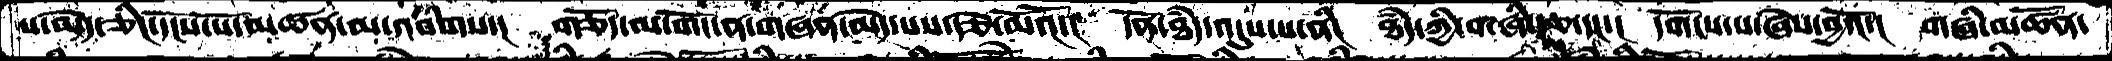པ་མེད་ཅིང་དངོས་པོ་མཚན་མ་འབིགས་།  གཅོད་ལ་གོང་ན་གཞན་མེད་པས་རྩེ་མོའོ་།  དོན་ཐཾད་འདུས་པ་ནི་།  ཐཾད་ཀྱི་གཞི་རྩ་དང་།  དགོངས་པ་ཞེས་བྱའོ་།  གཞི་མཚོན་
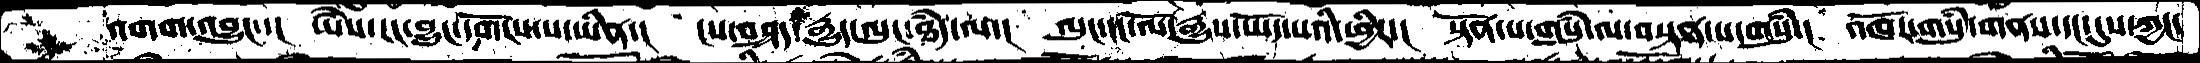འགག་འབྱུང་་།  ཡཻས་རང་བྱུང་དགོངས་པ་ཡིན་།  ངས་བཤད་རྒྱུད་ལུང་ཐདཾ་ལ་།  ལུང་དང་ལོ་རྒྱུས་ཡོད་པའི་ཕྱིར་།  སྟོན་པ་གསུཾ་ལ་བསྟན་པ་གསུཾ་།  འཁོར་གསུཾ་གནས་དང་དུས་ཀྱང་
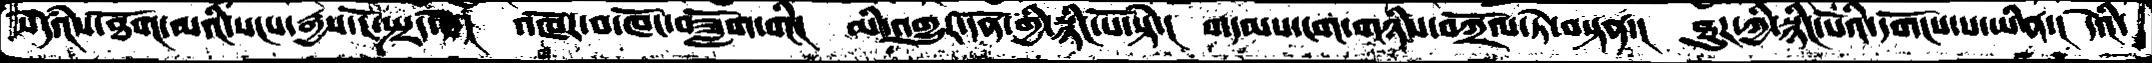སེདཾའས་ཐོག་མའི་སངས་རྒྱས་ངོ་སྤྲད་དེ་།  འཁོར་བ་ཁོང་བཟློག་གི།  མི་འགྱུར་དོན་གྱི་སྙིང་པོོ་སྟེ་།  གདམས་ངག་གཉིས་བཀྲོལ་ཏེ་བསྟན་།  ཐུཌ་ཀྱི་སྙིང་པོའི་དགོངས་པ་ཡིན་།  དེའི་
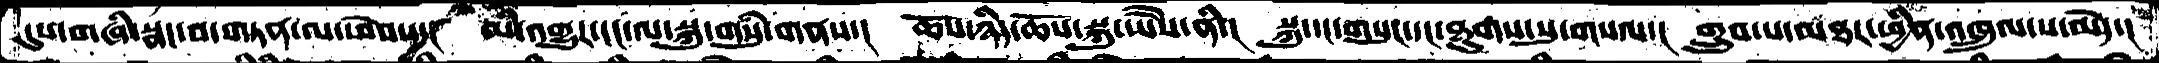དུས་གཞི་སྣང་བ་གཏན་ལ་ཕེབས་།  མི་འགྱུར་ངང་ལ་སྐུ་གསུཾ་གནས་།  ཆོས་ཉིད་ཆོས་སྐུ་ཡཻས་ནི་།  སྐུ་དང་གསུང་དང་ཐུགས་སུ་གསལ་།  གྲུབ་པ་མཐར་ཕྱིན་འཁྲུལ་པ་མེད་།
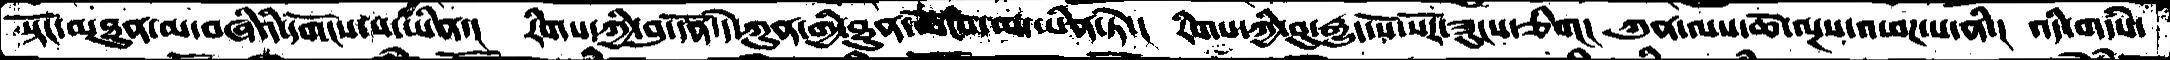སྟོང་མཐུན་མ་བཞིའི་དགོངས་པ་ཡིན་།  རིགས་ཀྱི་བུ་དོན་དེ་ཀུན་གྱི་ཐུན་མོངས་མ་ཡིན་ཏེ་།  རིགས་ཀྱི་བུ་རྒྱུད་སོ་སོར་ཟུངས་ཅིག། ཀུན་ལས་ཆོ་ལྔས་འཕཌ་པ་ནི་།  འདི་གདཾས་
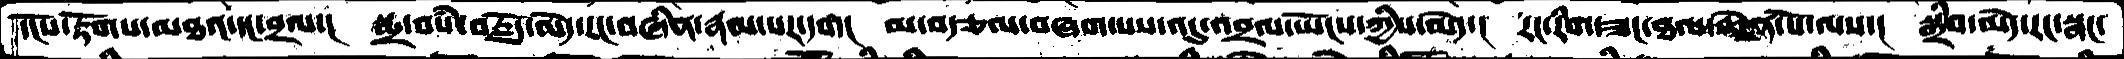དངོས་རྟོགས་མཐའ་དང་བྲལ་།  སྨྲ་བསཾ་བརྗོད་མེད་རང་བཞིན་རྣམ་པར་དག།  མ་བརྩལ་བཞག་པས་འདུ་བྲལ་ཡོངས་ཀྱིས་མེད་།  རང་རིག་ཟང་ཐལ་ཆེན་པོ་ལས་།  སྒྲིབ་མེད་རང་སྣང་
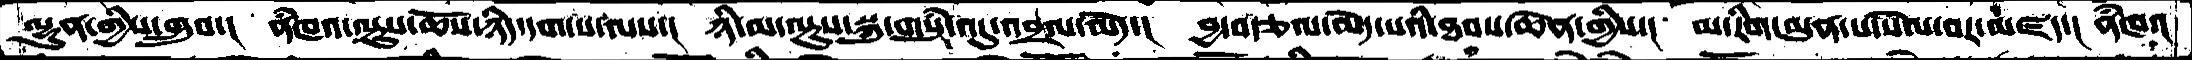ལྷུན་གྱིས་གྲུབ་།  ནཾཁའ་ལྟུས་ཆོས་ཉིད་དག་པ་ལས་།  ཉི་མ་ལྟུས་སྐུ་གསུཾ་འདུ་འབྲལ་མེད།  བྱ་བརྩལ་མེད་པའི་ཐབས་ཆེན་གྱིས་།  མ་རིག་མུན་པ་སེལ་བར་མཛད་།  ནཾཁའ་
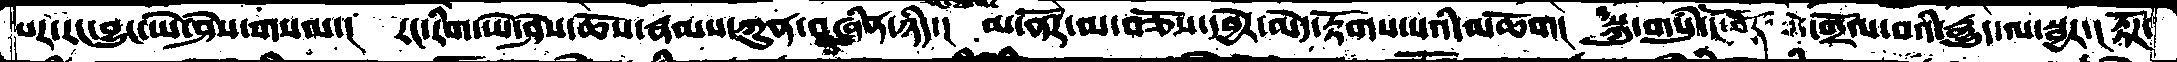པར་རང་བྱུང་ཡེ་ཤེས་གསལ་།  རང་རིག་ཡེ་ཤེས་ཆོས་རྣམས་ཀུན་བཞིན་ཉིད་།  མ་ནོར་མ་བཅོས་དབྱེར་མེད་རྟོགས་པའི་མཆོག།  སྐུ་གསུཾ་ངོ་བོར་གྲོལ་བའི་རྒྱུད་ལ་སྦྱར་།  རྟོཌ་
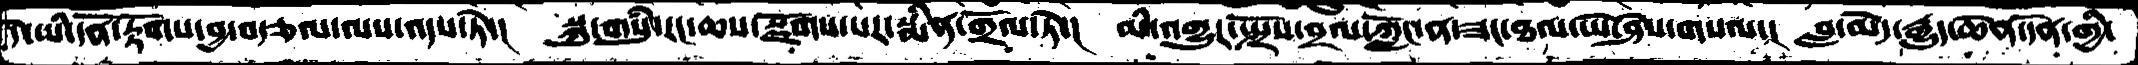དེ་ཡི་དོན་རྟོགས་བྱ་བརྩལ་ལས་འདས་ཏེ་།  སྐུ་གསུཾ་རང་ཆས་སྫོགས་པར་སྨིན་གྲོལ་ཏེ་།  མི་འགྱུར་སྤྲོས་བྲལ་ཀློང་ན་ཟང་ཐལ་ཡེ་ཤེས་གསལ་།  བླ་མེད་རྒྱུད་ཆེན་དོན་གྱི་
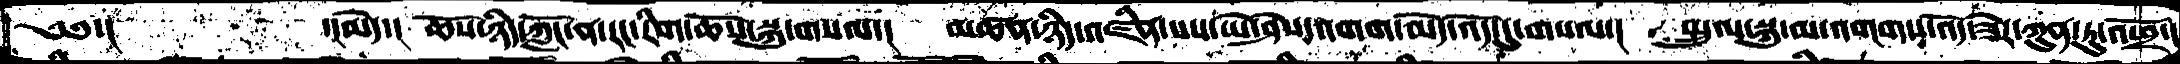༄༅་།       ་།མེད་།  ཆོས་ཉིད་ཀློང་ན་རང་རིག་ཆོས་སྐུ་གསལ་།  མཚན་ཉིད་འཛིན་པས་ཡེ་ཤེས་འགག་མེད་འོད་དུ་གསལ་།  སྤྲུལ་སྐུ་མ་འགགས་འོད་ཟེར་ཀུན་ཏུ་འཕྲོ་།
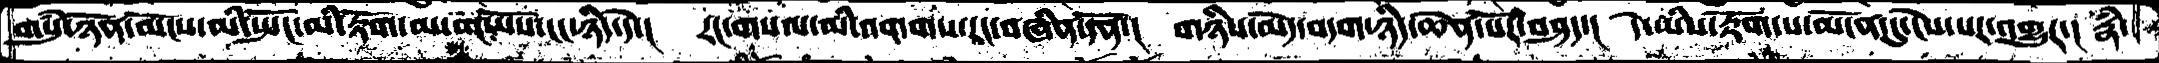གསུཾ་ཉོན་མོངས་མི་སྤོང་མི་རྟོག་མ་གཡོས་ངང་ཉིད་དེ་།  རང་གསལ་མི་འགགས་རང་བཞིན་དོན་།  གཉིས་མེད་བདག་ཉིད་ཆེན་པོར་བཤད་།  དེ་ཡིས་རྟོག་པ་མངོན་དུ་ངེས་པར་འགྱུར་།  རྣཾ་
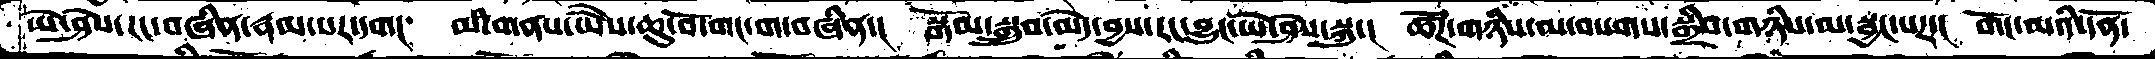ཡེ་ཤེས་རང་བཞིན་རྣམ་པར་དག།  མི་གནས་ཡཻས་ཆུ་བོ་གང་ག་བཞིན་།  སྒོམ་སྒྲུབ་མེད་བྱས་རང་བྱུང་ཡེ་ཤེས་སྐུ་།  ཚོཌ་གཉིས་མ་བསགས་སྒྲིབ་གཉིས་མ་སྦྱང་པར་།  གོང་མའི་དོན་
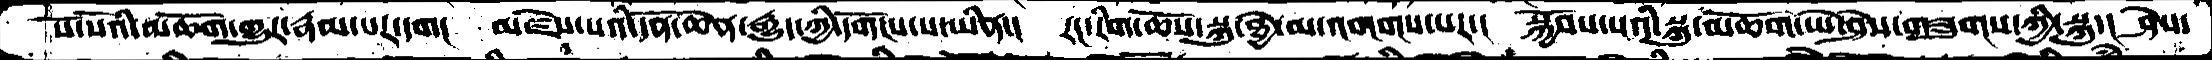སོ་སོའི་མཆོག་གྱུར་རྣམ་པར་དག།  མཛེས་པའི་དོན་ཆེན་རྒྱུད་ཀྱི་དགོངས་པ་ཡིན་།  རང་རིག་ཆོས་སྐུ་ཐྱེ་མ་འགགས་པར་།  སྐྱོབས་པའི་སྐུ་མཆོག་ཡེ་ཤེས་གཟུགས་ཀྱི་སྐུ་།  ཤེས་
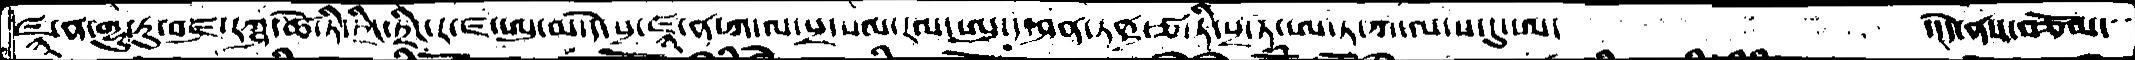ཛྙཱ་ན་གྷུ་རུ་བཛྲ་རཀྴ་ཚེ་ཏི་ཏྲིང་ཏྲིང་ར་ཛ་ཨུ་མ་དེ་པྲ་ཛྙཱ་ན་ཀ་ལ་པྲ་པལ་རམ་ཨུ་ད་ཤན་ཏནྡྲ་ཙ་ཏི་པྲ་ཨ་ཏ་ཀ་ལ་ས་དུ་ཨ།  ་།་དེ་ནས་བཅོམ་
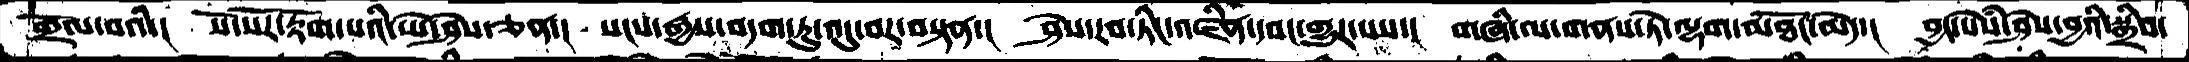གྲོལ་བའི་།  སོ་སོར་རྟོག་པའི་ཡེ་ཤེས་ཅན་།  སངས་རྒྱས་བདག་ཏུ་འདུ་བར་བསྟན་།  ཤེས་རབ་ཏིང་འཛིན་དབང་གྱུར་པས་།  གཞི་ལ་གནས་ཏེ་ལྷག་མཐོང་མེད་།  བྱང་སེཾས་ཤེས་བྱའི་སྒྲིབ་
